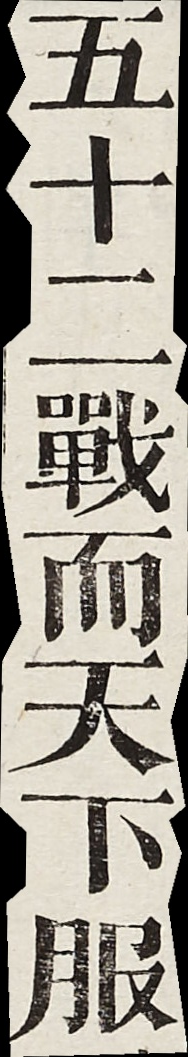五十二戰而天下服
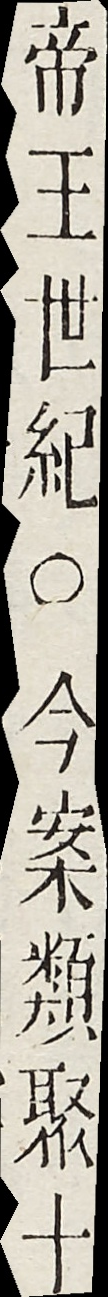帝王世○今案類聚十
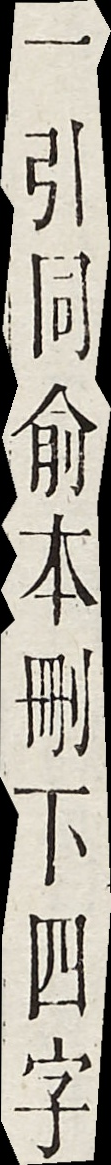一引同俞本刪下四字
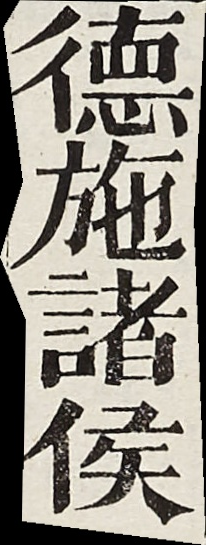德施諸侯
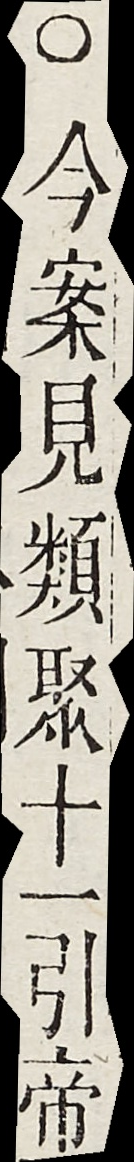○今案見類聚十一引帝
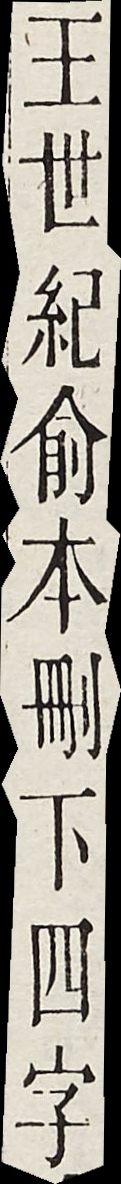王世紀俞本刪下四字
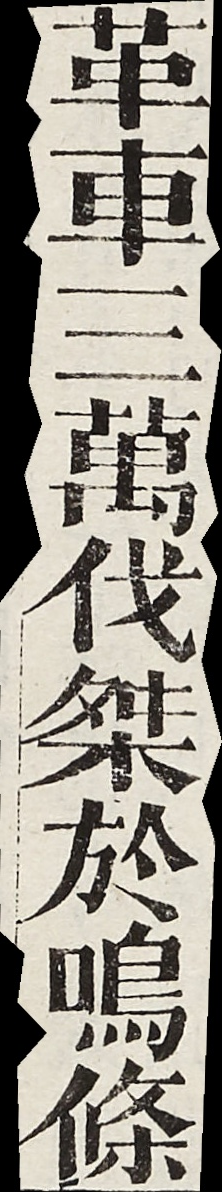革車三萬伐桀於鳴條
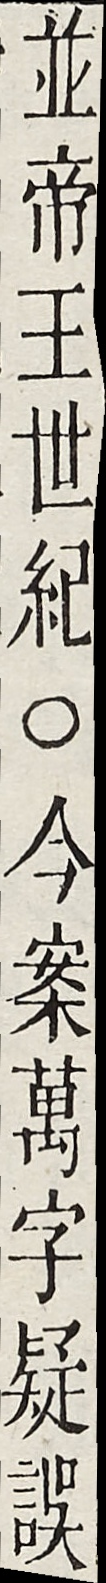並帝王世紀○今案萬字疑誤
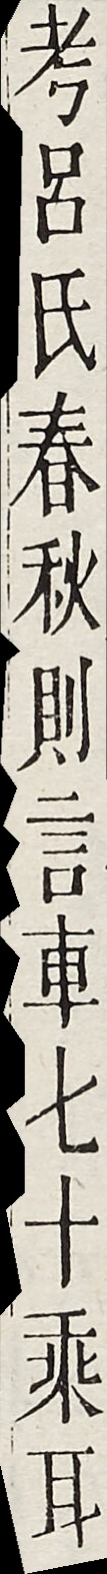考呂氏春秋則言車七十乘耳
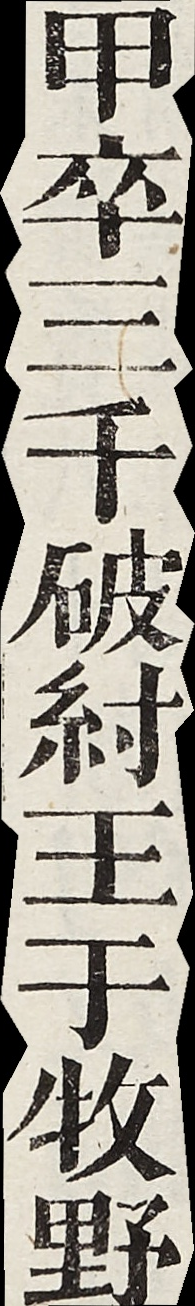甲卒三千破紂王于牧野
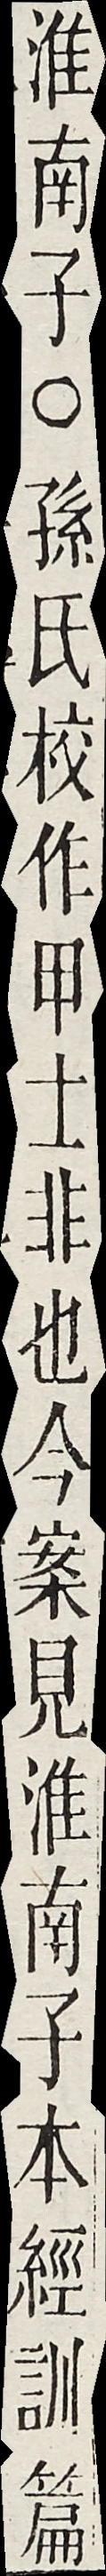淮南子○孫氏校作田士非也今案見淮南子本經訓篇
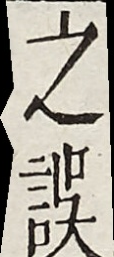之誤
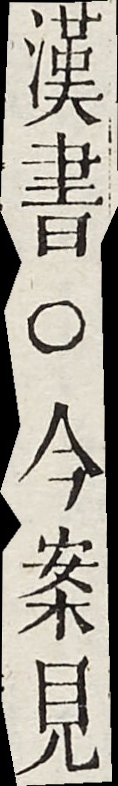漢書○今案見
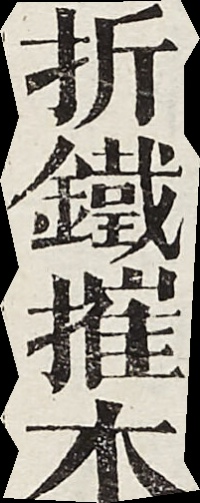折鐵摧木
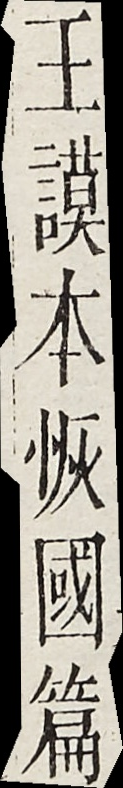王謨本恢國篇
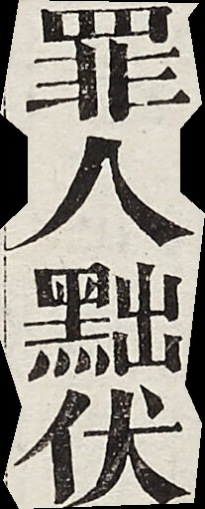罪人黜伏
